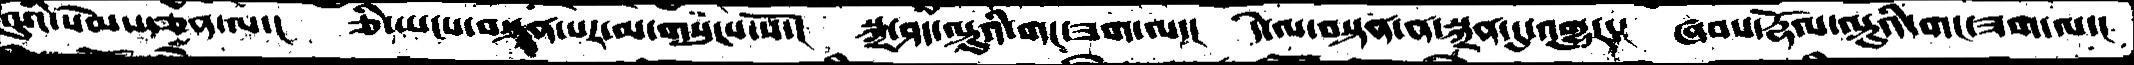བུའི་སེམས་ཅན་ལ་།  ཅི་ཡངས་བསྟན་པར་མ་གསུངས་སོ་།  སྐྲ་ཤད་ལྟུའི་གང་ཟག་ལ་།  དེ་ལ་བསྟན་ན་སྐྲན་དུ་འགྱུར་། ཞབས་རྡོལ་ལྟུའི་གང་ཟག་ལ་།
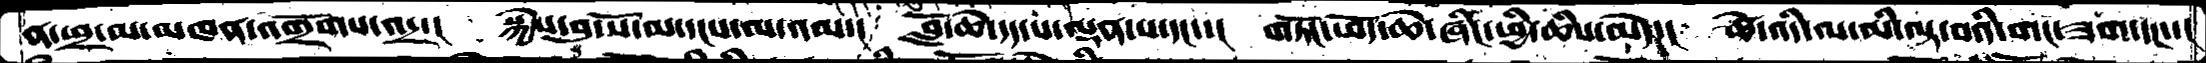ན་ཕྲ་མ་མཁན་འགྲོགས་འདྲ་།  སྐྱེས་བུ་སོ་མ་དངས་ལ་འམ་།  བློ་ཆེན་དད་པ་ལྡན་པ་དང་་།  གཏོང་ཕོད་ཆེ་ཞིང་ཕྱི་ཆཾས་མེད་།  ཚེ་འདི་ལ་མི་ལྟ་བའི་གང་ཟག་དང་་།
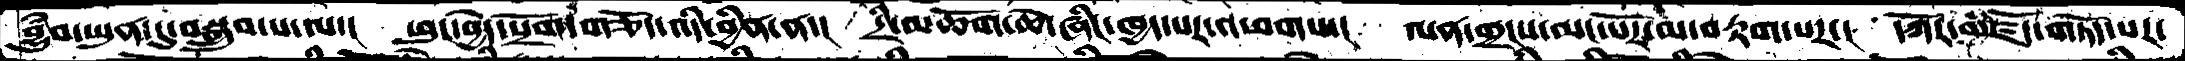བྱུཾབ་ཡུན་དུ་བསྒྲུབ་པ་ལ་།  ཕུང་མེད་སྲོག་གཅོད་འདི་བྱིན་ན་།  དྲི་མཆོག་ཆེ་ཞིང་ཁྱད་པར་འཕགས་།  ལན་གྲངས་མང་པོར་རིམ་བརྟགས་པར་།  དཀོར་མཛོད་གཏོད་པར་
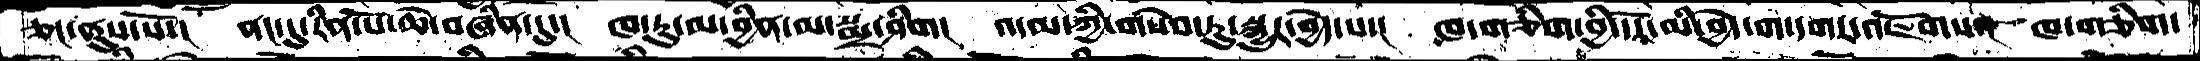ཅང་ནུས་སོ་།  ནང་དུ་རིན་པོ་ཆེ་བཞིན་དུ་། ཁ་རུ་མ་བྱིན་མ་སྨྲ་ཤིག།  འདམ་ཀྱི་གསེབ་ཏུ་སྐྱུར་བྱེད་པ་།  ཁ་གཅིག་བྱི་དོར་མི་བྱེད་ག་དགར་འཇོགས་།  ཁ་གཅིག་
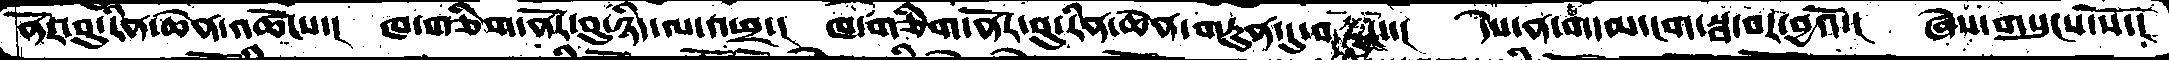ནོར་བུ་རིན་ཆེན་འཚོངས་།  ཁ་གཅིག་ནོར་བུ་ཉིད་ལ་འཕྲད་།  ཁ་གཅིག་ནོར་བུ་རིན་ཆེན་གཏུན་དུ་བརྫུང་་།  དེས་ན་གདམ་ངག་སྦ་བར་བྱའོ་།  ཞེས་གསུངས་སོ་།
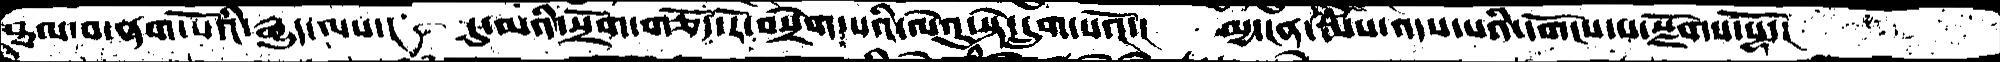ཐལ་བ་ནག་པོའི་རྒྱུད་ལས་།   དུ་མའི་སྲོག་གཅོད་རོ་བསྲེག་པའི་ལེའུ་སྟེ་དྲུག་པའོ་།   མྱ་ངན་ལས་འདས་པའི་དགོངས་པ་སྫོགས་སྷོ་།
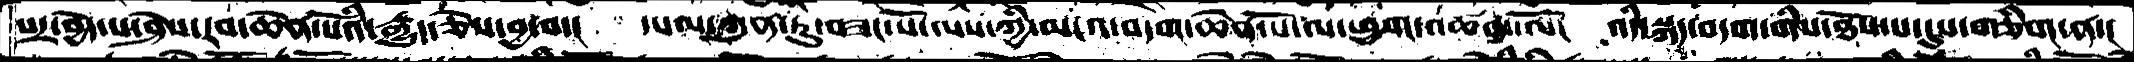པར་བྱེད་པ་ཤེས་རབ་ཆེན་པོའི་རྒྱུད་ཅེས་བྱ་བ་།   དཔལ་ཀུན་ཏུ་བཟང་པོ་ལས་ཀྱི་མངའ་བདག་ཆེན་པོ་ལ་ཕྱག་འཚལ་ལོ།    འདི་སྐད་བདག་གིས་ཐོས་པ་དུས་གཅིག་ན་།
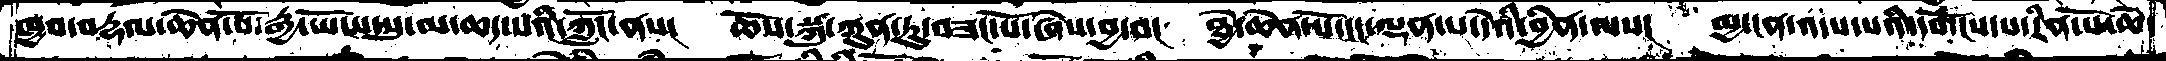ཁྱབ་བདྷལ་ཆེན་པོ་རྒྱ་ཡོངས་སུ་མ་ཆད་པའི་ཀློང་ནས།   ཆོས་སྐུ་ཀུན་ཏུ་བཟང་པོ་ཞེས་བྱ་བ།   ཐྱེ་ཆེན་པོ་དང་ལྡན་པ་དེའི་བྱིན་ལས།  མྱ་ངན་འདས་པའི་དགོངས་པ་རིན་པོ་ཆེ་
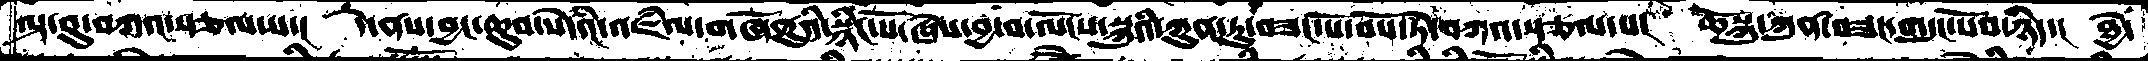ལྟ་བུ་བཀའ་སྩལ་པ་།  དེ་ནས་བྱང་ཆུབ་སེདཾའ་འཇཾལ་གཞོནུའི་སྙིང་པོ་ཞེས་བྱ་བ་ལོངས་སྐུའི་ཀུན་ཏུ་བཟང་པོ་བོས་ཏེ་བཀའ་སྩལ་པ།  ཆོསྐུ་ཀུན་བཟང་གདུང་སོབ་ཉིད་། ཐྱེ་
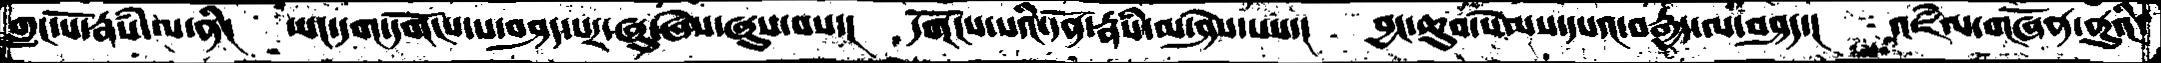གླང་པོ་རྣཾས་ལ་ནི།   ཡང་དག་དགོངས་པ་བཤད་པར་ཞུ་ཞེས་ཞུས་བས་།   དགོངས་པའི་དོན་རྣཾས་མ་ཤེས་པས་།  བྱང་ཆུབ་སེམས་དཔའ་བརྒྱད་ལ་བཤད་།   འཇཾལ་གཞོན་ནུའི་
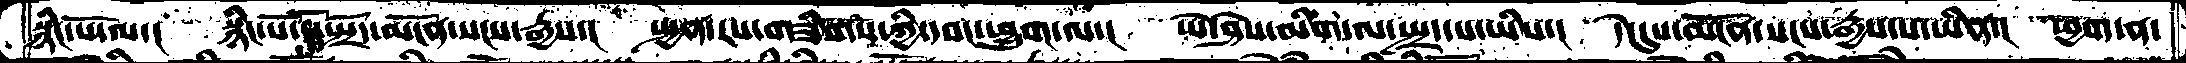སྙིང་པོ་ལ་།  སྙིང་པོ་ངོ་སྤྲོད་མངོན་སངས་རྒྱས་།  སྤྱན་རས་གཟིགས་ཀྱི་དབང་ཕྱུག་ལ་།  ཡེ་ཤེས་མིག་ལ་སྤྲད་པ་ཡིས་།  དེ་དུས་མངོན་སངས་རྒྱས་པ་ཡིན་།  ཕྱག་ན་
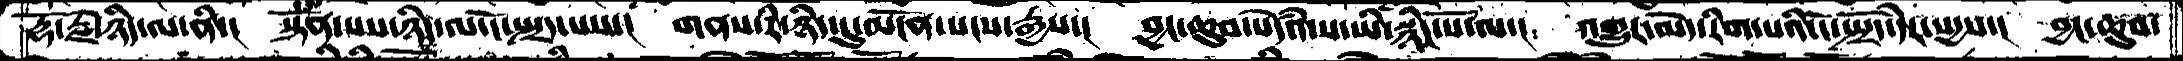རྡོ་རྗེ་ཉིད་ལ་ནི་།  སྟོན་པས་ཉིད་ལ་ངོ་སྤྲད་པས་།  གནས་རི་ཉིད་དུ་མངོན་སངས་རྒྱས་།  བྱང་ཆུབ་སེདཾའ་ས་ཡི་སྙིང་པོ་ལ་།  འགྱུར་མེད་རིག་པའི་ངོ་སྤྲོད་དེར་སདྱས་།  བྱང་ཆུབ་
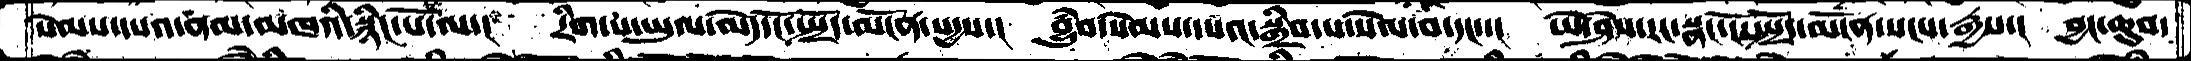སེམས་དཔའ་ནམ་མཁའི་སྙིང་པོ་ལ་།  རིག་པ་ཡུལ་མེད་ངོ་སྤྲོད་མངོན་སདྱས་།  བྱུཾབ་སེམས་དཔའ་སྒྲིབ་པ་སེལ་བ་དང་་། ཡེ་ཤེས་རང་སྣང་ངོ་སྤྲོད་མངོན་སངས་རྒྱས་།  བྱང་ཆུབ་
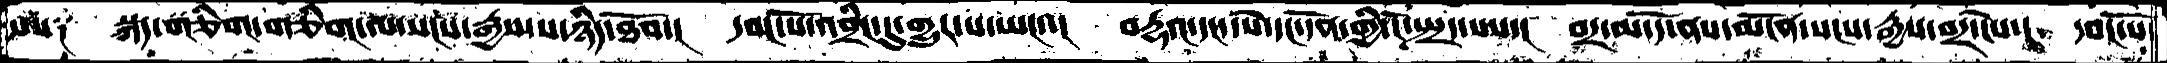ཨ༑   སྐད་གཅིག་གཅིག་ལ་སངས་རྒྱས་ས་ཉིད་ཐོབ་།   དབང་པོ་འབྲིང་དུ་གྱུར་པ་ཡང་་།   བདྷའ་དང་དཔེ་དང་དོན་གྱི་ངོ་སྤྲད་པས་།   བར་མ་དོ་ནས་མངོན་སངས་རྒྱས་བར་ངེས་།  དབང་པོ་
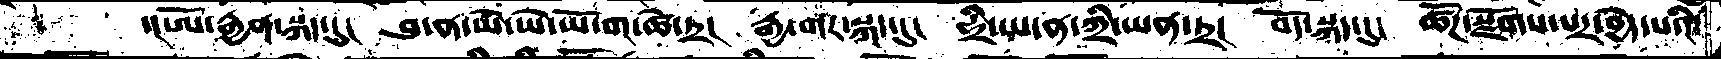་།ཨོ་རྒྱན་སྐད་དུ།   བུ་ན་མེ་ཡེ་ཡོ་ག་ཚེ་ཏྲ།   རྒྱ་གར་སྐད་དུ།  ཧྲི་ཡ་ན་ཀྲི་ཡན་ཏྲ།   བོད་སྐད་དུ།  ཚོཌ་སྫོགས་པར་བྱེད་པའི་
